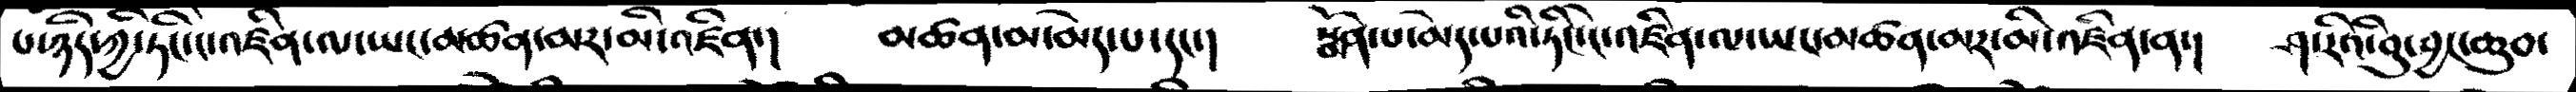པ་ཉིད་ཀྱི་ཏིང་ངེ་འཛིན་ལ་ཡང་མཚན་མར་མི་འཛིན་།   མཚན་མ་མེདཔ་དང་།     སྨོན་པ་མེད་པའི་ཏིང་ངེ་འཛིན་ལ་ཡང་མཚན་མར་མི་འཛིན་ན་།   ཤ་རིའི་བུ་བྱང་ཆུབ་
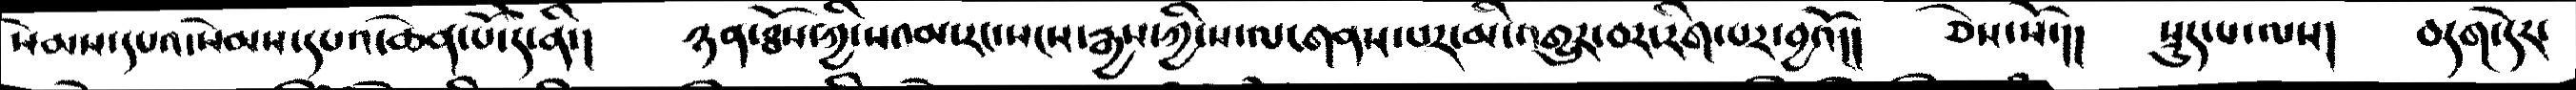སེམས་དཔའ་སེམས་དཔའ་ཆེན་པོ་དེ་ནི་།   ཉན་ཐོས་ཀྱི་སའམ་རང་སངས་རྒྱས་ཀྱི་ས་ལ་གནས་པར་མི་འགྱུར་བར་རིག་པར་བྱའོ།།    ཅེས་སོ་།།   སྡུད་པ་ལས།   བདག་དེར་
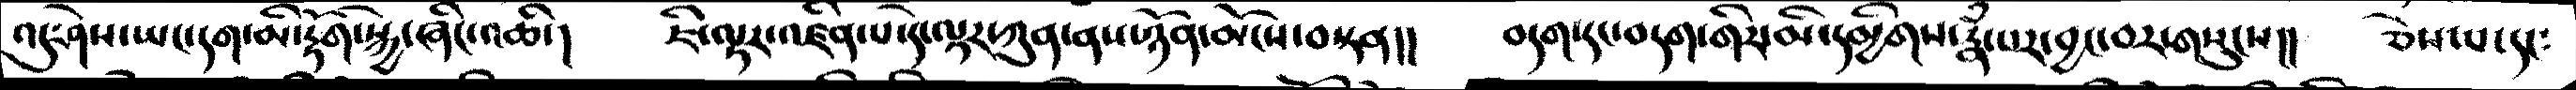འདུ་ཤེས་ཡང་དག་མི་རྟོག་སྐྱེ་ཞིང་འཆི་།    ཇི་ལྟར་འཛིན་པ་དེ་ལྟར་ཀུན་ནས་ཉོན་མོངས་བསྟན།།     བདག་དང་བདག་གིར་མི་དམིགས་རྣཾ་པར་བྱང་བར་གསུངས།།  ཅེས་པ་དང༴
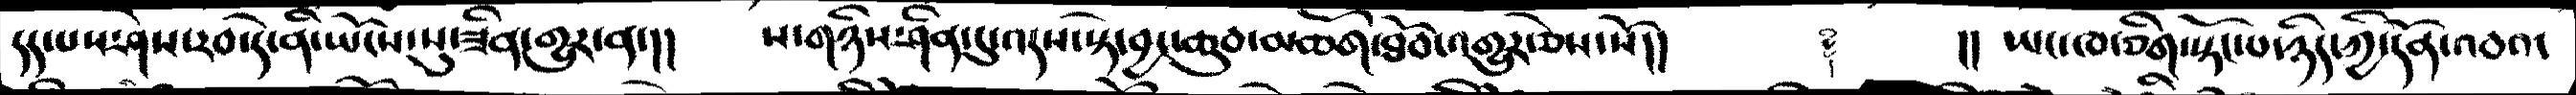དད་པས་ཤེས་རབ་དེ་ནི་ཡོངས་སུ་ཟིན་གྱུར་ན་།།   ས་གཉིས་ཤིན་དུ་འདས་སྟེ་བྱང་ཆུབ་མཆོག་ཐོབ་འགྱུར་ཅེས་སོ།།   ༈     །།   ཡང་ཁ་ཅིག་སྟོང་པ་ཉིད་ཀྱི་དོན་འབའ་
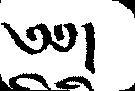༅༅།
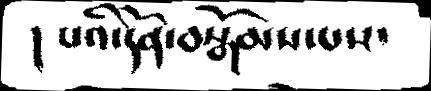། པའི་དོན་བསྒོམས་པས་
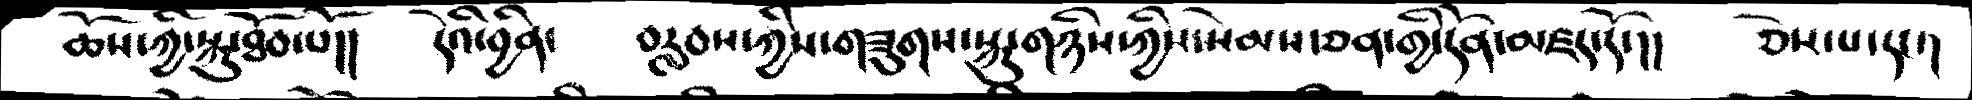ཆོས་ཀྱི་སྐུ་ཐོབ་པོ།།    དེའི་བྱིན་     བརླབས་ཀྱིས་གཟུགས་སྐུ་གཉིས་ཀྱིས་སེམས་ཅན་གྱི་དོན་མཛད་དོ་།།    ཅེས་པ་དང་།
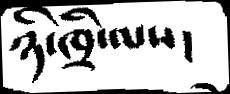ཉི་ཁྲི་ལས་
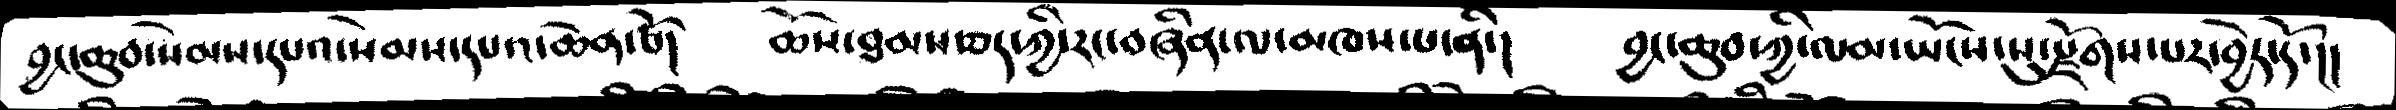བྱང་ཆུབ་སེམས་དཔའ་སེམས་དཔའ་ཆེན་པོ་     ཆོས་ཐམས་ཅད་ཀྱི་རང་བཞིན་ལ་མཁས་པ་ནི་།     བྱང་ཆུབ་ཀྱི་ལམ་ཡོངས་སུ་སྫོགས་པར་བྱེད་དོ་།།
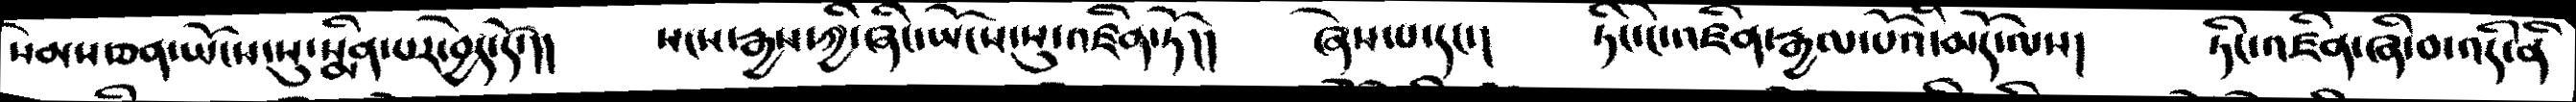སེམས་ཅན་ཡོངས་སུ་སྨིན་པར་བྱེད་དོ་།།     སངས་རྒྱས་ཀྱི་ཞིང་ཡོངས་སུ་འཛིན་ཏོ།།   ཞེས་པ་དང་།   ཏིང་ངེ་འཛིན་རྒྱལ་པོའི་མདོ་ལས།     ཏིང་འཛིན་ཞི་བ་འདི་ནི་
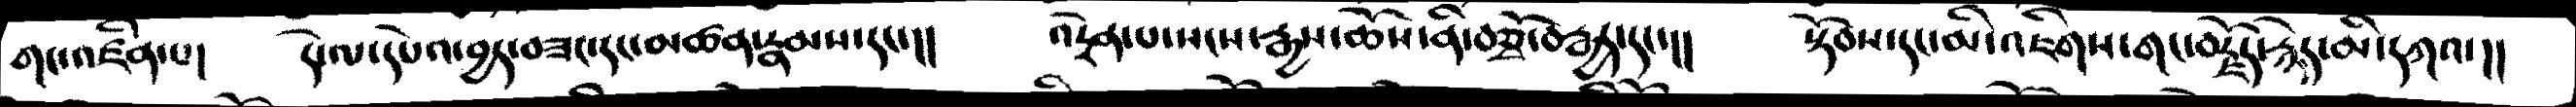གང་འཛིན་པ།    དེ་ལ་དཔེའ་བྱད་བཟང་དང་མཚན་རྣམས་དང་།།    འཏྲེན་པ་སངས་རྒྱས་ཆོས་ནི་བཅྭོ་བརྒྱད་དང་།།   སྟོབས་དང་མི་འཇིགས་གང་བརྗོད་རྙེད་མི་དཀའ་།།
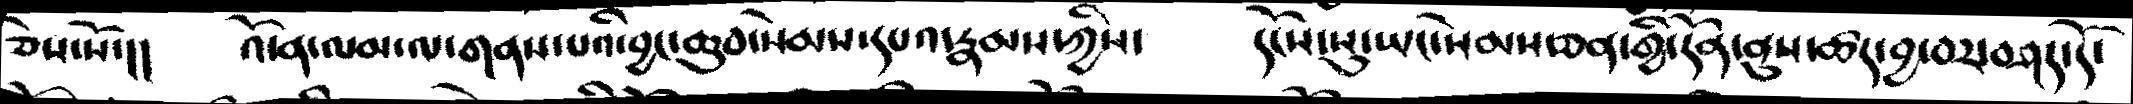ཅེས་སོ་།།     འོ་ན་ལམ་ལ་གནས་པའི་བྱང་ཆུབ་སེམས་དཔའ་རྣམས་ཀྱིས་      དངོས་སུ་ཡང་སེམས་ཅན་གྱི་དོན་ནུས་ཚད་བྱ་བར་བཤད་དོ་
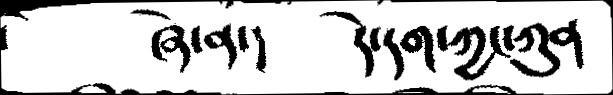ཞེ་ན་།     དེ་དག་ཀྱང་ཀུན་
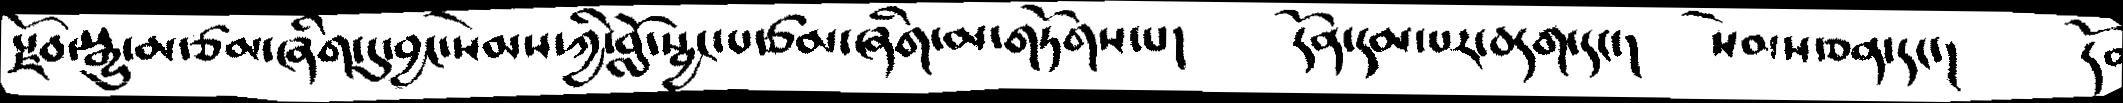སྫོབ་སྒྱུ་མ་ཙམ་ཞིག་དུ་བྱང་སེམས་ཀྱི་བློ་སྦྱང་པ་ཙམ་ཞིག་མ་གཏོགས་པ།    དོན་དམ་པར་བདག་དང་།   སེམས་ཅན་དང་།    དོན་
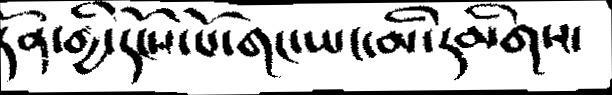དོན་གྱི་དངོས་པོ་གང་ཡང་མི་དམིགས་
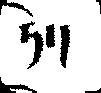ཏེ་།
